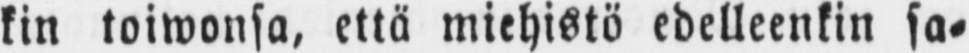kin toiwonsa, että miehistö edelleenkin sa-
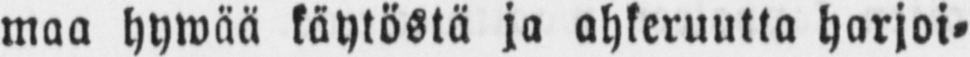maa hywää käytöstä ja ahkeruutta harjoi-
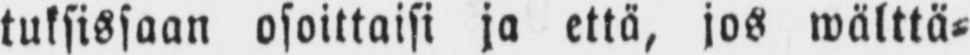tuksissaan osoittaisi ja että, jos wälttä-
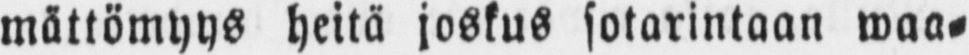mättömyys heitä joskus sotarintaan maa-
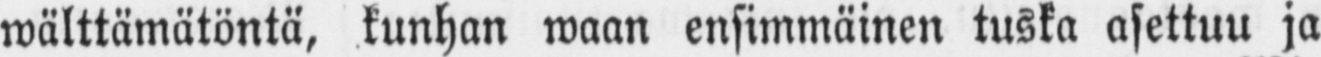wälttämätöntä, kunhan waan ensimmäinen tuska asettuu ja
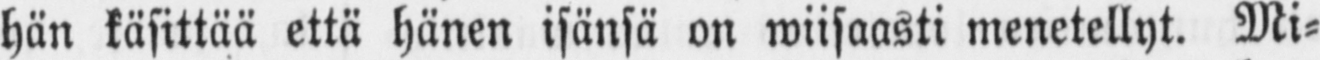hän käsittää että hänen isänsä on wiisaasti menetellyt. Mi-
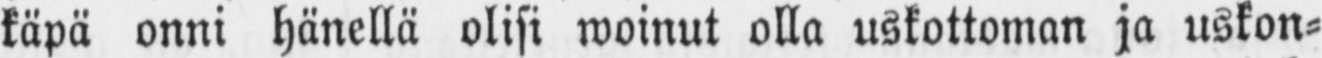käpä onni hänellä olisi woinut olla uskottoman ja uskon-
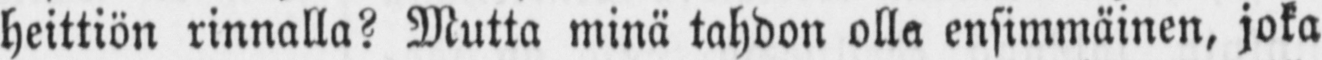heittiön rinnalla? Mutta minä tahdon olla ensimmäinen, joka
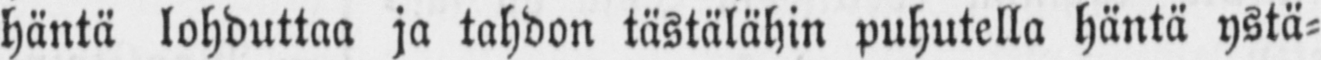häntä lohduttaa ja tahdon tästälähin puhutella häntä ystä-
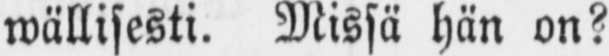wällisesti. Missä hän on?
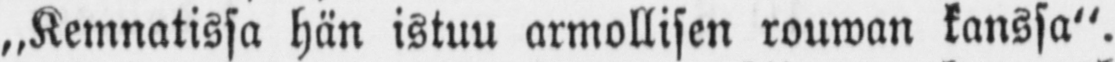„Kemnatissa hän istuu armollisen rouwan kanssa".
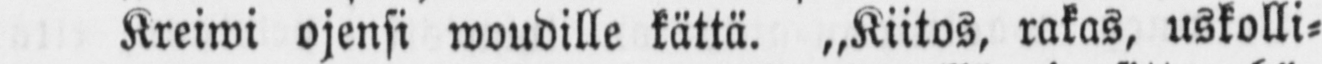Kreiwi ojensi woudille kättä. „Kiitos, rakas, uskolli-
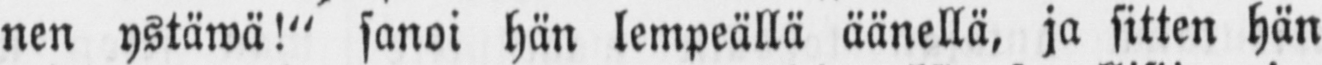nen ystäwä!" sanoi hän lempeällä äänellä, ja sitten hän
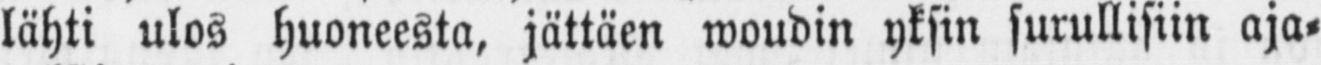lähti ulos huoneesta, jättäen woudin yksin surullisiin aja-
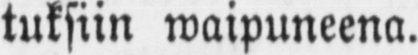tuksiin waipuneena.
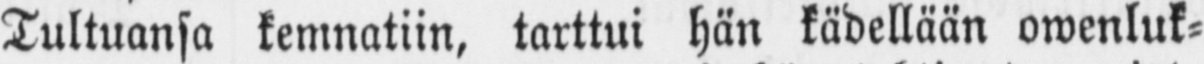Tultuansa kemnatiin, tarttui hän kädellään owenluk-
